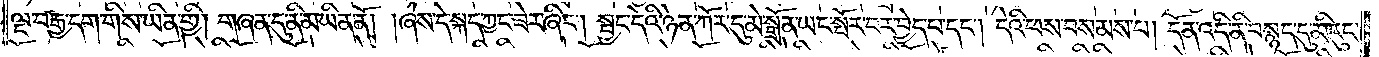ལྔ་བརྒྱ་དག་གིས་ཡིན་གྱི། གཞན་དུ་ནི་མ་ཡིན་ནོ། །ཞེས་དེ་སྐད་ཀྱང་ཟེར་ཞིང༌། སྦྱང་དེའི་ཉེན་ཀོར་དུ་མེ་སྒྲོན་ཡང་སྤོར་བར་བྱེད་པ་དང༌། དེའི་ཕས་བསམས་པ། དོན་འདི་ནི་བསྙད་དུ་མི་རུང་
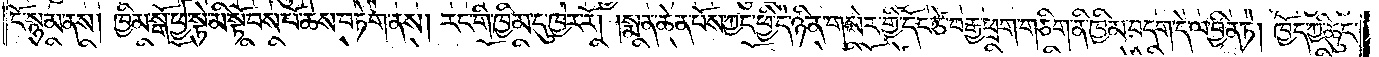ངོ་སྙམ་ནས། ཁྱིམ་སྒོ་ཕྱེ་སྟེ་མི་སྟོབས་པོ་ཆེས་བཏེག་ནས། རང་གི་ཁྱིམ་དུ་ཁྱེར་རོ། །སྨན་ཆེན་པོས་ཀྱང་ཕྱི་དེ་ཉིན་གསེར་གྱི་དོང་རྩེ་བརྒྱ་ཕྲག་གཅིག་ནི་ཁྱིམ་བདག་དེ་ལ་བྱིན་ཏེ། ཁྱོད་ཀྱི་ཆུང་
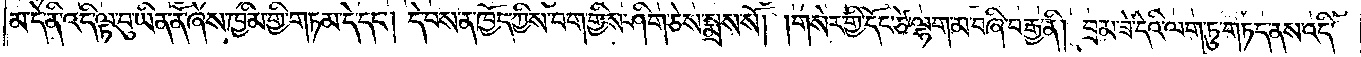མ་དེ་ནི་འདི་ལྟ་བུ་ཡིན་ནོ་ཞེས་ཁྱིམ་གྱི་གཏམ་དེ་དང༌། དེ་བས་ན་ཁྱོད་ཀྱིས་བག་གྱིས་ཤིག་ཅེས་སྨྲས་སོ། །གསེར་གྱི་དོང་ཙེ་ལྷག་མ་བཞི་བརྒྱ་ནི། བྲམ་ཟེ་དེའི་ལག་ཏུ་གཏད་ནས་འདི་
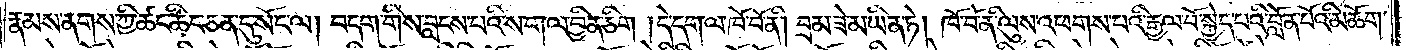རྣམས་ནགས་ཀྱི་ཚང་ཚིང་ཅན་དུ་སོང་ལ། བདག་གིས་བླངས་པའི་ས་ག་ལ་བྱིན་ཅིག །དེ་དག་ལ་ཁོ་བོ་ནི། བྲམ་ཟེ་མ་ཡིན་ཏེ། ཁོ་བོ་ནི་ལུས་འཕགས་པའི་རྒྱལ་པོ་སྐྱེད་པའི་བློན་པོའི་མཆོག་
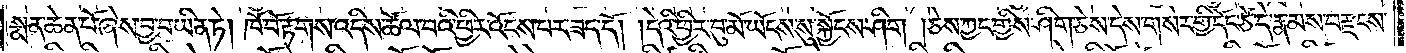སྨན་ཆེན་པོ་ཞེས་བྱ་བ་ཡིན་ཏེ། ཁོ་བོ་རྟགས་འདིས་ཚོལ་བའི་ཕྱིར་འོངས་པར་ཟད་དོ། །དེའི་ཕྱིར་བུ་མོ་ཡོངས་སུ་སྐྱོངས་ཤིག །ཅེས་ཀྱང་གྱིས་ཤིག་ཅེས་དེས་གསེར་གྱི་དོང་ཙེ་དེ་རྣམས་བརྫངས་
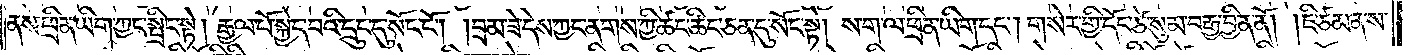ནས་ཕྲིན་ཡིག་ཀྱང་སྤྲིང་སྟེ། རྒྱལ་པོ་སྐྱེད་པའི་དྲུང་དུ་སོང་ངོ༌། །བྲམ་ཟེ་དེས་ཀྱང་ནགས་ཀྱི་ཚང་ཚིང་ཅན་དུ་སོང་སྟེ། ས་ག་ལ་ཕྲིན་ཡིག་དང༌། གསེར་གྱི་དོང་ཙེ་སུམ་བརྒྱ་བྱིན་ནོ། །ཇི་ཙམ་ནས་
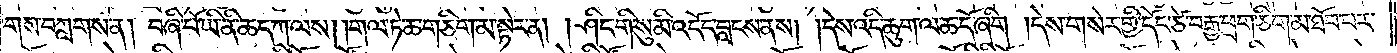གས་བཀླགས་ན། བཞི་པོ་ཡི་ནི་ཆད་ཀ་ལས། །གལ་ཏེ་ཆ་གཅིག་མ་སྟེར་ན། །ཤིང་གི་སུ་མི་འདོད་བླངས་ནས། །དེས་འདི་ཆུག་ལ་ཆ་དོ་ཞིག །དེས་གསེར་གྱི་དོང་ཙེ་བརྒྱ་ཕྲག་ཅིག་མ་ཐོབ་པར་
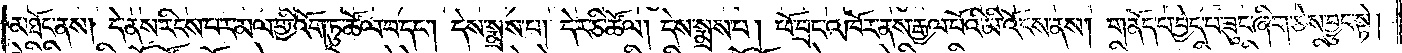མཐོང་ནས། དེ་ནས་རིངས་པར་མལ་གྱི་འོག་ཏུ་ཚོལ་བ་དང༌། དེས་སྨྲས་པ། དེར་ཅི་ཚོལ། དེས་སྨྲས་པ། ཕོ་བྲང་འཁོར་ནས་རྒྱལ་པོའི་མི་འོངས་ནས། གནོད་པ་བྱེད་པ་ཟུང་ཞིག་ཅེས་བྱུང་སྟེ།
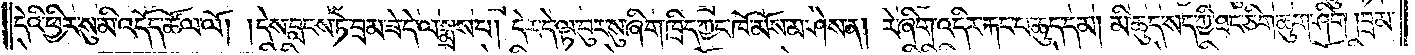དེའི་ཕྱིར་སུ་མི་འདོད་ཚོལ་ལོ། དེས་བླངས་ཏེ་བྲམ་ཟེ་དེ་ལ་སྨྲས་པ། དེར་དེ་ལྟ་བུར་སུ་ཞིག་ཁྲིད་ཀྱང་ཁོ་མོས་མ་ཤེས་ན། རེ་ཞིག་འདིར་རྐང་པ་ཆུད་དམ། མི་ཆུད་སད་ཀྱི་ཐང་ཅིག་ཆུག་ཅིག །བྲམ་
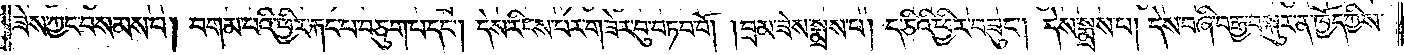ཟེས་ཀྱང་བསམས་པ། བགམ་པའི་ཕྱིར་རྐང་པ་བཅུག་པ་དང༌། དེས་རིངས་པར་གཟེར་བུ་བཏབ་བོ། །བྲམ་ཟེས་སྨྲས་པ། ད་ཅིའི་ཕྱིར་བཟུང༌། དེས་སྨྲས་པ། དེས་བཞི་བརྒྱ་བསྐུར་ན་ཁྱོད་ཀྱིས་
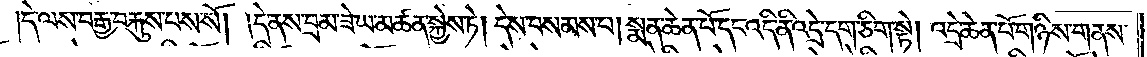དེ་ལས་བརྒྱ་བརྐུས་པས་སོ། །དེ་ནས་བྲམ་ཟེ་ཡ་མཚན་སྐྱེས་ཏེ། དེས་བསམས་པ། སྨན་ཆེན་པོ་དང་འདི་ནི་འདྲེ་དག་ཅིག་སྟེ། འདྲེ་ཆེན་པོ་གཉིས་གནས་
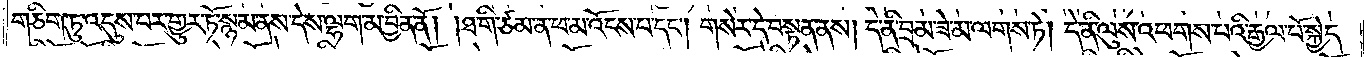གཅིག་ཏུ་འདུས་པར་གྱུར་ཏོ་སྙམ་ནས་དེས་ལྷག་མ་བྱིན་ནོ། །ཐ་གི་ཙམ་ན་ཕ་མ་འོངས་པ་དང༌། གསེར་དེ་བསྟན་ནས། དེ་ནི་བྲམ་ཟེ་མ་ལགས་ཏེ། དེ་ནི་ལུས་འཕགས་པའི་རྒྱལ་པོ་སྐྱེད་
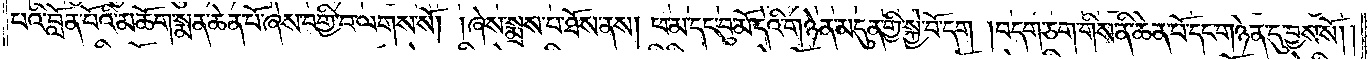པའི་བློན་པོའི་མཆོག་སྨན་ཆེན་པོ་ཞེས་བགྱི་བ་ལགས་སོ། །ཞེས་སྨྲས་པ་ཐོས་ནས། ཕ་མ་དང་བུ་མོ་དེའི་གཉེན་མདུན་གྱི་སྐྱེ་བོ་དག །བདག་ཅག་གིས་ནི་ཆེན་པོ་དང་གཉེན་དུ་བྱས་སོ། །
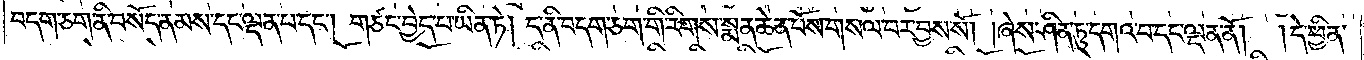བདག་ཅག་ནི་བསོད་ནམས་དང་ལྡན་པ་དང༌། གཙང་བྱེད་པ་ཡིན་ཏེ། ང་ནི་བདག་ཅག་གི་རིགས་སྨན་ཆེན་པོས་གསལ་བར་བྱས་སོ། །ཞེས་ཤིན་ཏུ་དགའ་བ་དང་ལྡན་ནོ། །དེ་ཕྱིན་
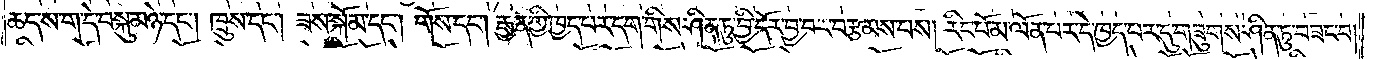ཆད་ས་ག་དེ་བསྐུ་མཉེ་དང༌། ཁྲུས་དང༌། ཟས་སྐོམ་དང༌། གོས་དང༌། རྒྱན་གྱི་ཁྱད་པར་དག་གིས་ཤིན་ཏུ་བྱི་དོར་བྱ་བར་བརྩམས་པས། རིང་པོ་མ་ལོན་པར་དེ་ཁྱད་པར་དུ་གཟུགས་ཤིན་ཏུ་བཟང་བ།
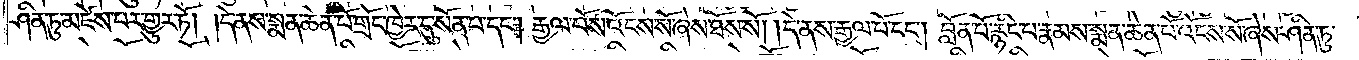ཤིན་ཏུ་མཛེས་པར་གྱུར་ཏོ། །དེ་ནས་སྨན་ཆེན་པོ་གྲོང་ཁྱེར་དུ་སོན་པ་དང༌། རྒྱལ་པོས་འོངས་སོ་ཞེས་ཐོས་སོ། །དེ་ནས་རྒྱལ་པོ་དང༌། བློན་པོ་རྙིང་པ་རྣམས་སྨན་ཆེན་པོ་འོངས་སོ་ཞེས་ཤིན་ཏུ་
